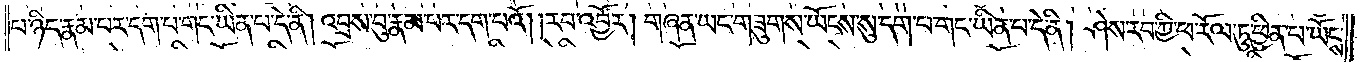པ་ཉིད་རྣམ་པར་དག་པ་གང་ཡིན་པ་དེ་ནི། འབྲས་བུ་རྣམ་པར་དག་པའོ། །རབ་འབྱོར། གཞན་ཡང་གཟུགས་ཡོངས་སུ་དག་པ་གང་ཡིན་པ་དེ་ནི། ཤེས་རབ་ཀྱི་ཕ་རོལ་ཏུ་ཕྱིན་པ་ཡོངས་
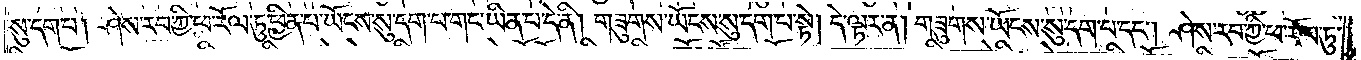སུ་དག་པ། ཤེས་རབ་ཀྱི་ཕ་རོལ་ཏུ་ཕྱིན་པ་ཡོངས་སུ་དག་པ་གང་ཡིན་པ་དེ་ནི། གཟུགས་ཡོངས་སུ་དག་པ་སྟེ། དེ་ལྟར་ན། གཟུགས་ཡོངས་སུ་དག་པ་དང༌། ཤེས་རབ་ཀྱི་ཕ་རོལ་ཏུ་
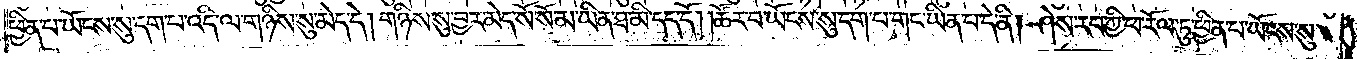ཕྱིན་པ་ཡོངས་སུ་དག་པ་འདི་ལ་གཉིས་སུ་མེད་དེ། གཉིས་སུ་བྱར་མེད་སོ་སོ་མ་ཡིན་ཐ་མི་དད་དོ། །ཚོར་བ་ཡོངས་སུ་དག་པ་གང་ཡིན་པ་དེ་ནི། ཤེས་རབ་ཀྱི་ཕ་རོལ་ཏུ་ཕྱིན་པ་ཡོངས་སུ་
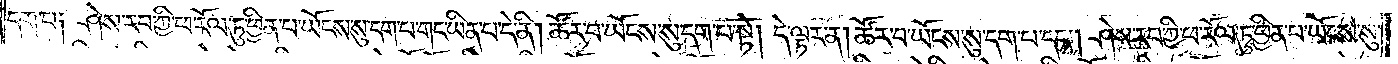དག་པ༑ ཤེས་རབ་ཀྱི་ཕ་རོལ་ཏུ་ཕྱིན་པ་ཡོངས་སུ་དག་པ་གང་ཡིན་པ་དེ་ནི། ཚོར་བ་ཡོངས་སུ་དག་པ་སྟེ། དེ་ལྟར་ན། ཚོར་བ་ཡོངས་སུ་དག་པ་དང༌། ཤེས་རབ་ཀྱི་ཕ་རོལ་ཏུ་ཕྱིན་པ་ཡོངས་སུ་
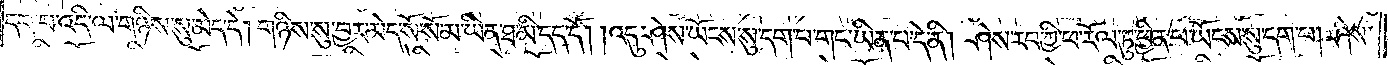དག་པ་འདི་ལ་གཉིས་སུ་མེད་དེ། གཉིས་སུ་བྱར་མེད་སོ་སོ་མ་ཡིན་ཐ་མི་དད་དོ། །འདུ་ཤེས་ཡོངས་སུ་དག་པ་གང་ཡིན་པ་དེ་ནི། ཤེས་རབ་ཀྱི་ཕ་རོལ་ཏུ་ཕྱིན་པ་ཡོངས་སུ་དག་པ། ཤེས་
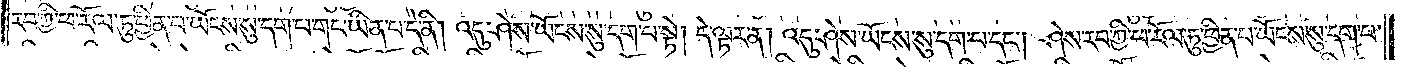རབ་ཀྱི་ཕ་རོལ་ཏུ་ཕྱིན་པ་ཡོངས་སུ་དག་པ་གང་ཡིན་པ་དེ་ནི། འདུ་ཤེས་ཡོངས་སུ་དག་པ་སྟེ། དེ་ལྟར་ན། འདུ་ཤེས་ཡོངས་སུ་དག་པ་དང༌། ཤེས་རབ་ཀྱི་ཕ་རོལ་ཏུ་ཕྱིན་པ་ཡོངས་སུ་དག་པ་
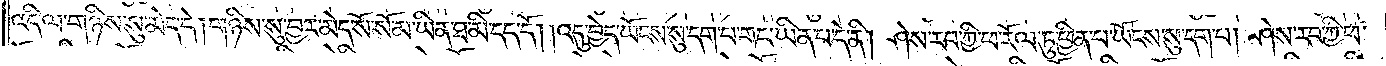འདི་ལ་གཉིས་སུ་མེད་དེ། གཉིས་སུ་བྱར་མེད་སོ་སོ་མ་ཡིན་ཐ་མི་དད་དོ། །འདུ་བྱེད་ཡོངས་སུ་དག་པ་གང་ཡིན་པ་དེ་ནི། ཤེས་རབ་ཀྱི་ཕ་རོལ་ཏུ་ཕྱིན་པ་ཡོངས་སུ་དག་པ། ཤེས་རབ་ཀྱི་ཕ་
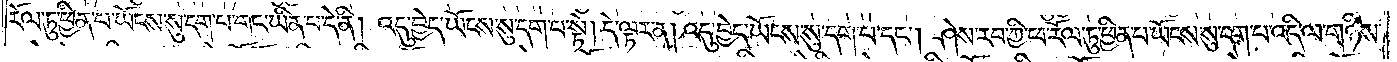རོལ་ཏུ་ཕྱིན་པ་ཡོངས་སུ་དག་པ་གང་ཡིན་པ་དེ་ནི། འདུ་བྱེད་ཡོངས་སུ་དག་པ་སྟེ། དེ་ལྟར་ན། འདུ་བྱེད་ཡོངས་སུ་དག་པ་དང༌། ཤེས་རབ་ཀྱི་ཕ་རོལ་ཏུ་ཕྱིན་པ་ཡོངས་སུ་དག་པ་འདི་ལ་གཉིས་
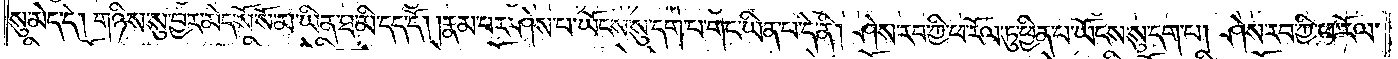སུ་མེད་དེ། གཉིས་སུ་བྱར་མེད་སོ་སོ་མ་ཡིན་ཐ་མི་དད་དོ། །རྣམ་པར་ཤེས་པ་ཡོངས་སུ་དག་པ་གང་ཡིན་པ་དེ་ནི། ཤེས་རབ་ཀྱི་ཕ་རོལ་ཏུ་ཕྱིན་པ་ཡོངས་སུ་དག་པ། ཤེས་རབ་ཀྱི་ཕ་རོལ་
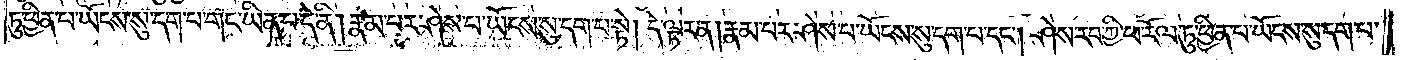ཏུ་ཕྱིན་པ་ཡོངས་སུ་དག་པ་གང་ཡིན་པ་དེ་ནི། རྣམ་པར་ཤེས་པ་ཡོངས་སུ་དག་པ་སྟེ། དེ་ལྟར་ན། རྣམ་པར་ཤེས་པ་ཡོངས་སུ་དག་པ་དང༌། ཤེས་རབ་ཀྱི་ཕ་རོལ་ཏུ་ཕྱིན་པ་ཡོངས་སུ་དག་པ་
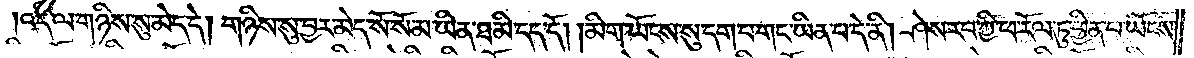འདི་ལ་གཉིས་སུ་མེད་དེ། གཉིས་སུ་བྱར་མེད་སོ་སོ་མ་ཡིན་ཐ་མི་དད་དོ། །མིག་ཡོངས་སུ་དག་པ་གང་ཡིན་པ་དེ་ནི། ཤེས་རབ་ཀྱི་ཕ་རོལ་ཏུ་ཕྱིན་པ་ཡོངས་
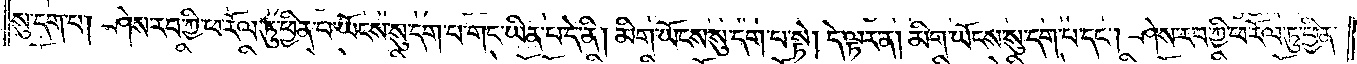སུ་དག་པ། ཤེས་རབ་ཀྱི་ཕ་རོལ་ཏུ་ཕྱིན་པ་ཡོངས་སུ་དག་པ་གང་ཡིན་པ་དེ་ནི། མིག་ཡོངས་སུ་དག་པ་སྟེ། དེ་ལྟར་ན། མིག་ཡོངས་སུ་དག་པ་དང༌། ཤེས་རབ་ཀྱི་ཕ་རོལ་ཏུ་ཕྱིན་
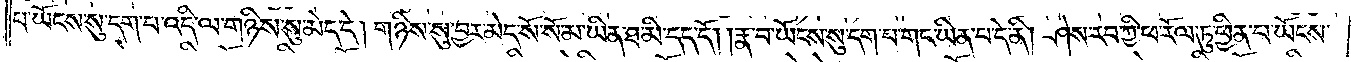པ་ཡོངས་སུ་དག་པ་འདི་ལ་གཉིས་སུ་མེད་དེ། གཉིས་སུ་བྱར་མེད་སོ་སོ་མ་ཡིན་ཐ་མི་དད་དོ། །རྣ་བ་ཡོངས་སུ་དག་པ་གང་ཡིན་པ་དེ་ནི། ཤེས་རབ་ཀྱི་ཕ་རོལ་ཏུ་ཕྱིན་པ་ཡོངས་
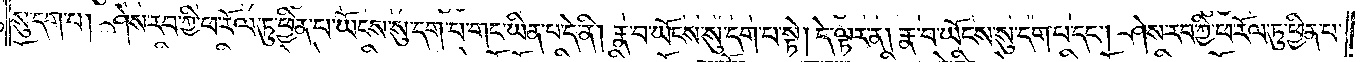སུ་དག་པ། ཤེས་རབ་ཀྱི་ཕ་རོལ་ཏུ་ཕྱིན་པ་ཡོངས་སུ་དག་པ་གང་ཡིན་པ་དེ་ནི། རྣ་བ་ཡོངས་སུ་དག་པ་སྟེ། དེ་ལྟར་ན། རྣ་བ་ཡོངས་སུ་དག་པ་དང༌། ཤེས་རབ་ཀྱི་ཕ་རོལ་ཏུ་ཕྱིན་པ་
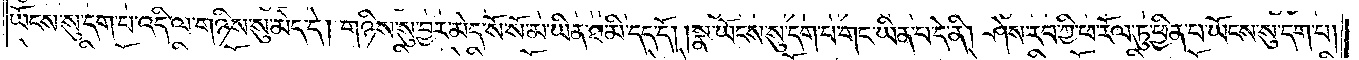ཡོངས་སུ་དག་པ་འདི་ལ་གཉིས་སུ་མེད་དེ། གཉིས་སུ་བྱར་མེད་སོ་སོ་མ་ཡིན་ཐ་མི་དད་དོ། །སྣ་ཡོངས་སུ་དག་པ་གང་ཡིན་པ་དེ་ནི། ཤེས་རབ་ཀྱི་ཕ་རོལ་ཏུ་ཕྱིན་པ་ཡོངས་སུ་དག་པ།
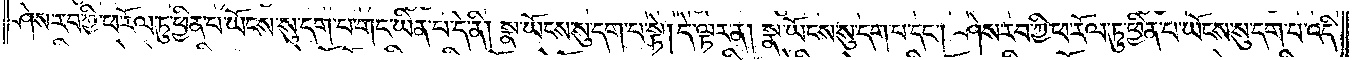ཤེས་རབ་ཀྱི་ཕ་རོལ་ཏུ་ཕྱིན་པ་ཡོངས་སུ་དག་པ་གང་ཡིན་པ་དེ་ནི། སྣ་ཡོངས་སུ་དག་པ་སྟེ། དེ་ལྟར་ན། སྣ་ཡོངས་སུ་དག་པ་དང༌། ཤེས་རབ་ཀྱི་ཕ་རོལ་ཏུ་ཕྱིན་པ་ཡོངས་སུ་དག་པ་འདི་
